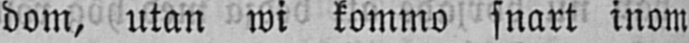dom, utan wi kommo snart inom
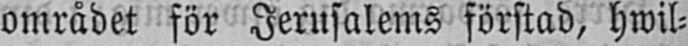området för Jerusalems förstad, hwil-
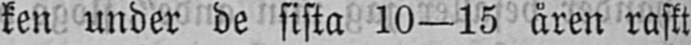ken under de sista 10—15 åren raskt
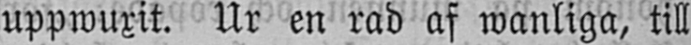uppwuxit. Ur en rad af wanliga, till
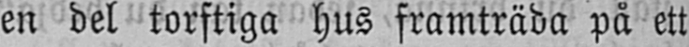en del torftiga hus framträda på ett
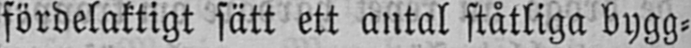fördelaktigt sätt ett antal ståtliga bygg-
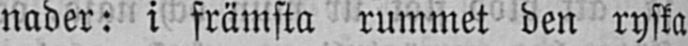nader: i främsta rummet den ryska
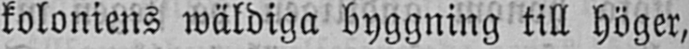koloniens wäldiga byggning till höger,
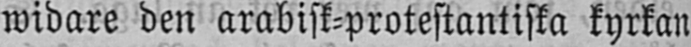widare den arabisk-protestantiska kyrkan
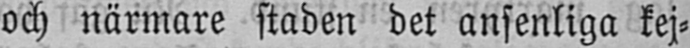och närmare staden det ansenliga kej-
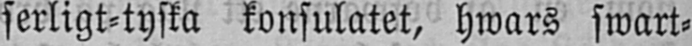serligt-tyska konsulatet, hwars swart-
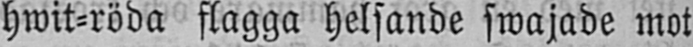hwit-röda flagga helsande swajade mot
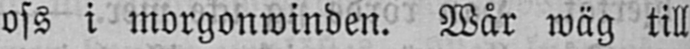oss i morgonwinden. Wår wäg till
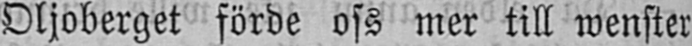Oljoberget förde oss mer till wenster
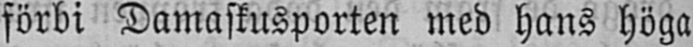förbi Damaskusporten med hans höga
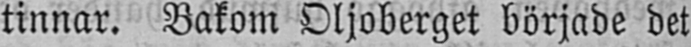tinnar. Bakom Oljoberget började det
